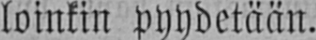loinkin pyydetään.
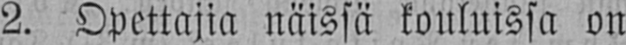2. Opettajia näissä kouluissa on
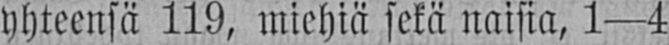yhteensä 119, miehiä sekä naisia, 1 —4
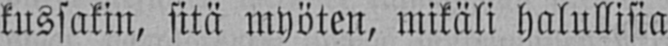kussakin, sitä myöten, mikäli halullisia
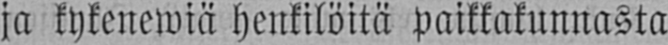ja kykenewiä henkilöitä paikkakunnasta
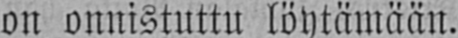on onnistuttu löytämään.
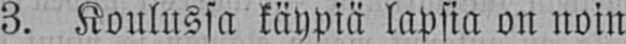3. Koulussa käypiä lapsia on noin
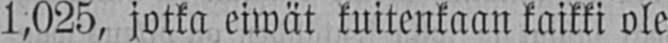1,025, jotka eiwät kuitenkaan kaikki ole
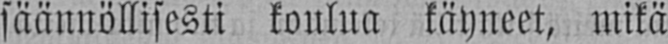säännöllisesti koulua käyneet, mikä
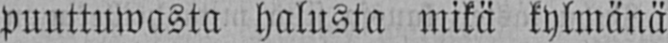puuttuwasta halusta mikä kylmänä
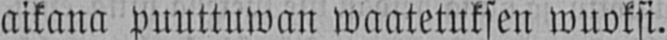aikana puuttuwan waatetuksen wnoksi.
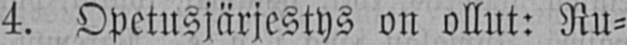4. Opetusjärjestys on ollut: Ru-
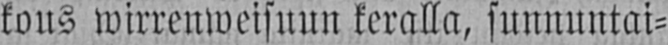kous wirrenweisuun keralla, sunnuntai-
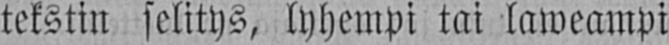tekstin selitys, lyhempi tai laweampi
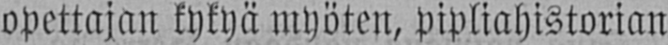opettajan kykyä myöten, pipliahistorian
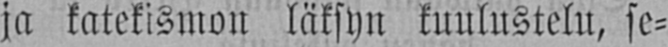ja katekismon läksyn kuulustelu, se-
